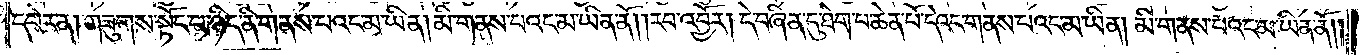དཔེར་ན། གཟུགས་སྟོང་པ་ཉིད་ནི་གནས་པའང་མ་ཡིན། མི་གནས་པའང་མ་ཡིན་ནོ། །རབ་འབྱོར། དེ་བཞིན་དུ་ཐེག་པ་ཆེན་པོ་དེའང་གནས་པའང་མ་ཡིན། མི་གནས་པའང་མ་ཡིན་ནོ། །
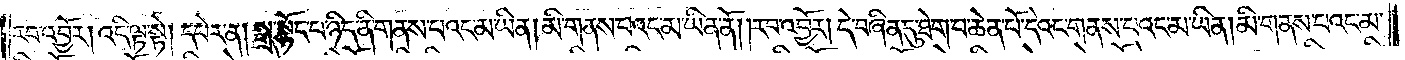རབ་འབྱོར། འདི་ལྟ་སྟེ། དཔེར་ན། སྒྲ་སྟོང་པ་ཉིད་ནི་གནས་པའང་མ་ཡིན། མི་གནས་པའང་མ་ཡིན་ནོ། །རབ་འབྱོར། དེ་བཞིན་དུ་ཐེག་པ་ཆེན་པོ་དེའང་གནས་པའང་མ་ཡིན། མི་གནས་པའང་མ་
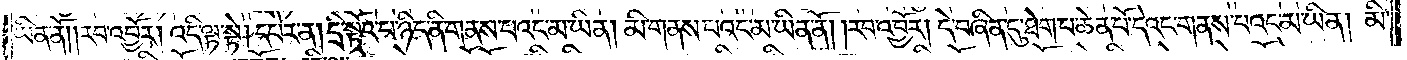ཡིན་ནོ། །རབ་འབྱོར། འདི་ལྟ་སྟེ། དཔེར་ན། དྲི་སྟོང་པ་ཉིད་ནི་གནས་པའང་མ་ཡིན། མི་གནས་པའང་མ་ཡིན་ནོ། །རབ་འབྱོར། དེ་བཞིན་དུ་ཐེག་པ་ཆེན་པོ་དེའང་གནས་པའང་མ་ཡིན། མི་
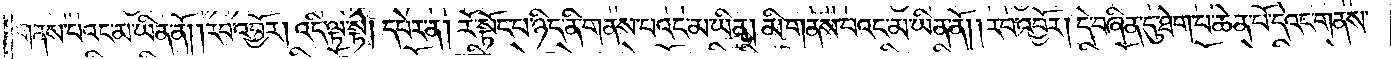གནས་པའང་མ་ཡིན་ནོ། །རབ་འབྱོར། འདི་ལྟ་སྟེ། དཔེར་ན། རོ་སྟོང་པ་ཉིད་ནི་གནས་པའང་མ་ཡིན། མི་གནས་པའང་མ་ཡིན་ནོ། །རབ་འབྱོར། དེ་བཞིན་དུ་ཐེག་པ་ཆེན་པོ་དེའང་གནས་
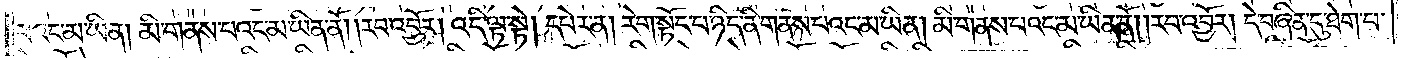པའང་མ་ཡིན། མི་གནས་པའང་མ་ཡིན་ནོ། །རབ་འབྱོར། འདི་ལྟ་སྟེ། དཔེར་ན། རེག་སྟོང་པ་ཉིད་ནི་གནས་པའང་མ་ཡིན། མི་གནས་པའང་མ་ཡིན་ནོ། །རབ་འབྱོར། དེ་བཞིན་དུ་ཐེག་པ་
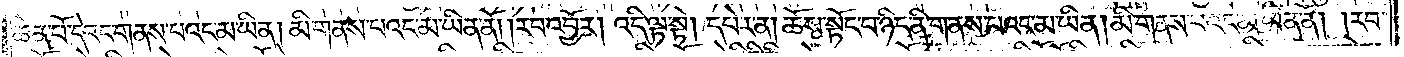ཆེན་པོ་དེའང་གནས་པའང་མ་ཡིན། མི་གནས་པའང་མ་ཡིན་ནོ། །རབ་འབྱོར། འདི་ལྟ་སྟེ། དཔེར་ན། ཆོས་སྟོང་པ་ཉིད་ནི་གནས་པའང་མ་ཡིན། མི་གནས་པའང་མ་ཡིན་ནོ། །རབ་
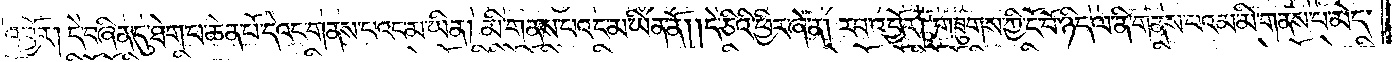འབྱོར། དེ་བཞིན་དུ་ཐེག་པ་ཆེན་པོ་དེའང་གནས་པའང་མ་ཡིན། མི་གནས་པའང་མ་ཡིན་ནོ། །དེ་ཅིའི་ཕྱིར་ཞེ་ན། རབ་འབྱོར། གཟུགས་ཀྱི་ངོ་བོ་ཉིད་ལ་ནི་གནས་པའམ་མི་གནས་པ་མེད་
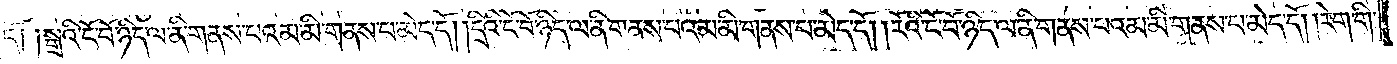དོ༑ ༑སྒྲའི་ངོ་བོ་ཉིད་ལ་ནི་གནས་པའམ་མི་གནས་པ་མེད་དོ། །དྲིའི་ངོ་བོ་ཉིད་ལ་ནི་གནས་པའམ་མི་གནས་པ་མེད་དོ། །རོའི་ངོ་བོ་ཉིད་ལ་ནི་གནས་པའམ་མི་གནས་པ་མེད་དོ། །རེག་གི་
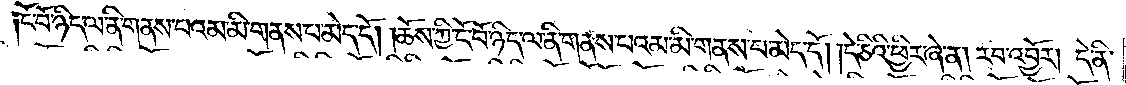ངོ་བོ་ཉིད་ལ་ནི་གནས་པའམ་མི་གནས་པ་མེད་དོ། །ཆོས་ཀྱི་ངོ་བོ་ཉིད་ལ་ནི་གནས་པའམ་མི་གནས་པ་མེད་དོ། །དེ་ཅིའི་ཕྱིར་ཞེ་ན། རབ་འབྱོར། དེ་ནི་
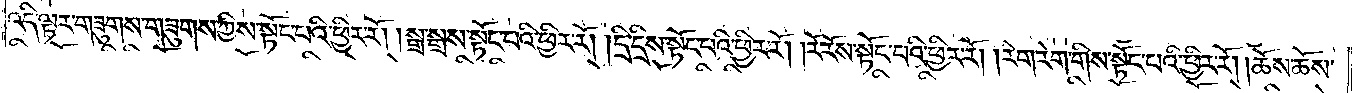འདི་ལྟར་གཟུགས་གཟུགས་ཀྱིས་སྟོང་པའི་ཕྱིར་རོ། །སྒྲ་སྒྲས་སྟོང་པའི་ཕྱིར་རོ། །དྲི་དྲིས་སྟོང་པའི་ཕྱིར་རོ། །རོ་རོས་སྟོང་པའི་ཕྱིར་རོ། །རེག་རེག་གིས་སྟོང་པའི་ཕྱིར་རོ། །ཆོས་ཆོས་
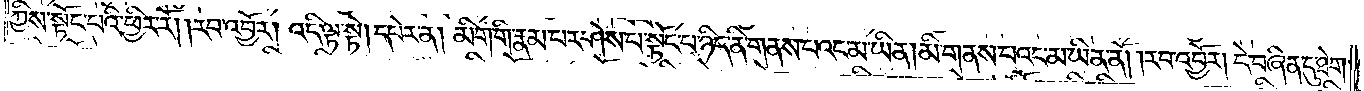ཀྱིས་སྟོང་པའི་ཕྱིར་རོ། །རབ་འབྱོར། འདི་ལྟ་སྟེ། དཔེར་ན། མིག་གི་རྣམ་པར་ཤེས་པ་སྟོང་པ་ཉིད་ནི་གནས་པའང་མ་ཡིན། མི་གནས་པའང་མ་ཡིན་ནོ། །རབ་འབྱོར། དེ་བཞིན་དུ་ཐེག་
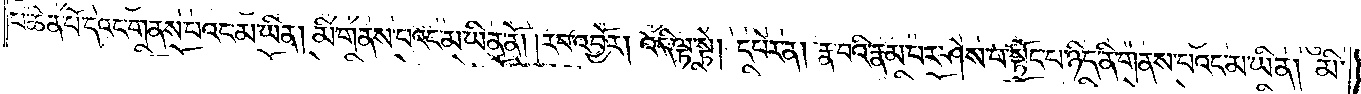པ་ཆེན་པོ་དེའང་གནས་པའང་མ་ཡིན། མི་གནས་པའང་མ་ཡིན་ནོ། །རབ་འབྱོར། འདི་ལྟ་སྟེ། དཔེར་ན། རྣ་བའི་རྣམ་པར་ཤེས་པ་སྟོང་པ་ཉིད་ནི་གནས་པའང་མ་ཡིན། མི་
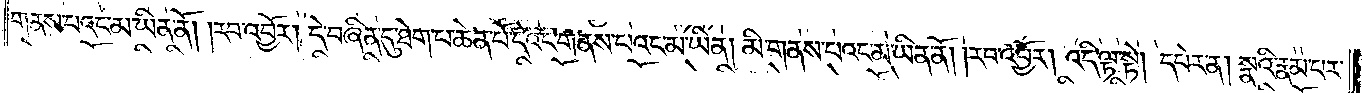གནས་པའང་མ་ཡིན་ནོ། །རབ་འབྱོར། དེ་བཞིན་དུ་ཐེག་པ་ཆེན་པོ་དེའང་གནས་པའང་མ་ཡིན། མི་གནས་པའང་མ་ཡིན་ནོ། །རབ་འབྱོར། འདི་ལྟ་སྟེ། དཔེར་ན། སྣའི་རྣམ་པར་
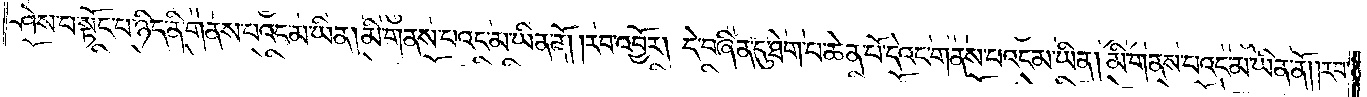ཤེས་པ་སྟོང་པ་ཉིད་ནི་གནས་པའང་མ་ཡིན་མི་གནས་པའང་མ་ཡིན་ནོ། །རབ་འབྱོར། དེ་བཞིན་དུ་ཐེག་པ་ཆེན་པོ་དེའང་གནས་པའང་མ་ཡིན། མི་གནས་པའང་མ་ཡིན་ནོ། །རབ་
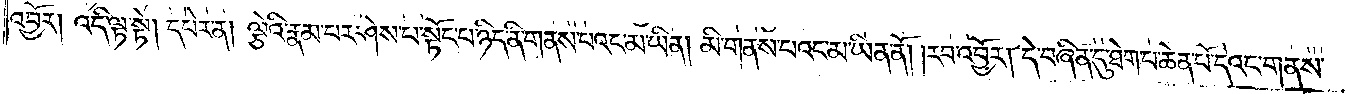འབྱོར། འདི་ལྟ་སྟེ། དཔེར་ན། ལྕེའི་རྣམ་པར་ཤེས་པ་སྟོང་པ་ཉིད་ནི་གནས་པའང་མ་ཡིན། མི་གནས་པའང་མ་ཡིན་ནོ། །རབ་འབྱོར། དེ་བཞིན་དུ་ཐེག་པ་ཆེན་པོ་དེའང་གནས་
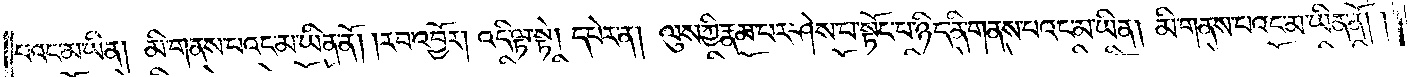པའང་མ་ཡིན། མི་གནས་པའང་མ་ཡིན་ནོ། །རབ་འབྱོར། འདི་ལྟ་སྟེ། དཔེར་ན། ལུས་ཀྱི་རྣམ་པར་ཤེས་པ་སྟོང་པ་ཉིད་ནི་གནས་པའང་མ་ཡིན། མི་གནས་པའང་མ་ཡིན་ནོ། །
